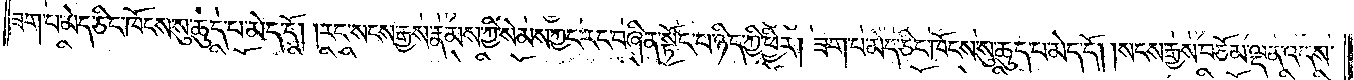ཟག་པ་མེད་ཅིང་ཁོངས་སུ་ཆུད་པ་མེད་དོ། །རང་སངས་རྒྱས་རྣམས་ཀྱི་སེམས་ཀྱང་རང་བཞིན་སྟོང་པ་ཉིད་ཀྱི་ཕྱིར། ཟག་པ་མེད་ཅིང་ཁོངས་སུ་ཆུད་པ་མེད་དོ། །སངས་རྒྱས་བཅོམ་ལྡན་འདས་
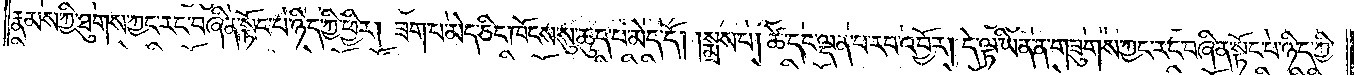རྣམས་ཀྱི་ཐུགས་ཀྱང་རང་བཞིན་སྟོང་པ་ཉིད་ཀྱི་ཕྱིར། ཟག་པ་མེད་ཅིང་ཁོངས་སུ་ཆུད་པ་མེད་དོ། །སྨྲས་པ། ཚེ་དང་ལྡན་པ་རབ་འབྱོར། དེ་ལྟ་ཡིན་ན་གཟུགས་ཀྱང་རང་བཞིན་སྟོང་པ་ཉིད་ཀྱི་
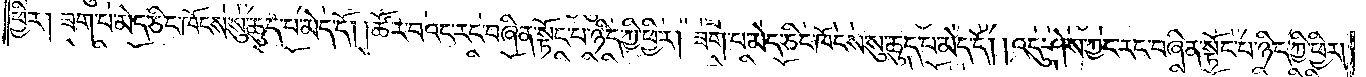ཕྱིར། ཟག་པ་མེད་ཅིང་ཁོངས་སུ་ཆུད་པ་མེད་དོ། །ཚོར་བའང་རང་བཞིན་སྟོང་པ་ཉིད་ཀྱི་ཕྱིར། ཟག་པ་མེད་ཅིང་ཁོངས་སུ་ཆུད་པ་མེད་དོ། །འདུ་ཤེས་ཀྱང་རང་བཞིན་སྟོང་པ་ཉིད་ཀྱི་ཕྱིར།
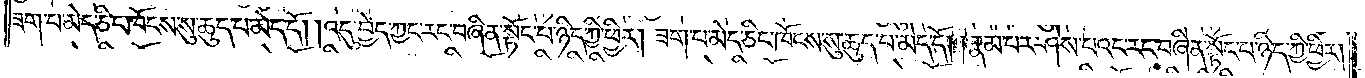ཟག་པ་མེད་ཅིང་ཁོངས་སུ་ཆུད་པ་མེད་དོ། །འདུ་བྱེད་ཀྱང་རང་བཞིན་སྟོང་པ་ཉིད་ཀྱི་ཕྱིར། ཟག་པ་མེད་ཅིང་ཁོངས་སུ་ཆུད་པ་མེད་དོ། །རྣམ་པར་ཤེས་པའང་རང་བཞིན་སྟོང་པ་ཉིད་ཀྱི་ཕྱིར།
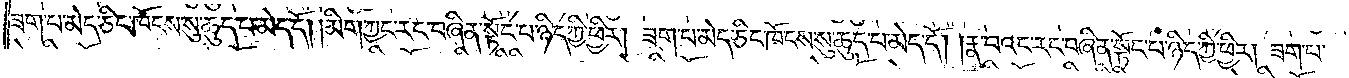ཟག་པ་མེད་ཅིང་ཁོངས་སུ་ཆུད་པ་མེད་དོ། །མིག་ཀྱང་རང་བཞིན་སྟོང་པ་ཉིད་ཀྱི་ཕྱིར། ཟག་པ་མེད་ཅིང་ཁོངས་སུ་ཆུད་པ་མེད་དོ། །རྣ་བའང་རང་བཞིན་སྟོང་པ་ཉིད་ཀྱི་ཕྱིར། ཟག་པ་
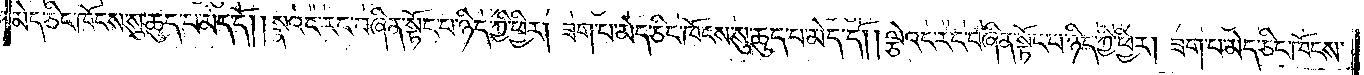མེད་ཅིང་ཁོངས་སུ་ཆུད་པ་མེད་དོ། །སྣའང་རང་བཞིན་སྟོང་པ་ཉིད་ཀྱི་ཕྱིར། ཟག་པ་མེད་ཅིང་ཁོངས་སུ་ཆུད་པ་མེད་དོ། །ལྕེའང་རང་བཞིན་སྟོང་པ་ཉིད་ཀྱི་ཕྱིར། ཟག་པ་མེད་ཅིང་ཁོངས་
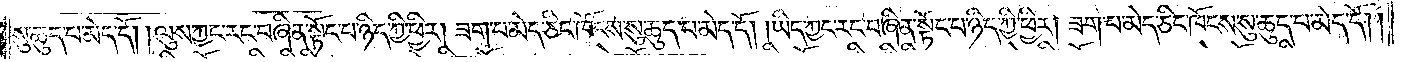སུ་ཆུད་པ་མེད་དོ། །ལུས་ཀྱང་རང་བཞིན་སྟོང་པ་ཉིད་ཀྱི་ཕྱིར། ཟག་པ་མེད་ཅིང་ཁོངས་སུ་ཆུད་པ་མེད་དོ། །ཡིད་ཀྱང་རང་བཞིན་སྟོང་པ་ཉིད་ཀྱི་ཕྱིར། ཟག་པ་མེད་ཅིང་ཁོངས་སུ་ཆུད་པ་མེད་དོ། །
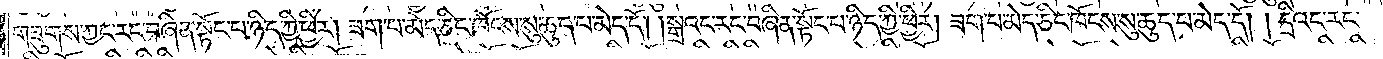གཟུགས་ཀྱང་རང་བཞིན་སྟོང་པ་ཉིད་ཀྱི་ཕྱིར། ཟག་པ་མེད་ཅིང་ཁོངས་སུ་ཆུད་པ་མེད་དོ། །སྒྲའང་རང་བཞིན་སྟོང་པ་ཉིད་ཀྱི་ཕྱིར། ཟག་པ་མེད་ཅིང་ཁོངས་སུ་ཆུད་པ་མེད་དོ། །དྲིའང་རང་
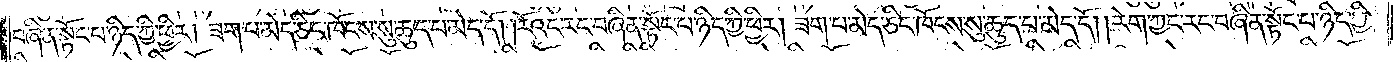བཞིན་སྟོང་པ་ཉིད་ཀྱི་ཕྱིར། ཟག་པ་མེད་ཅིང་ཁོངས་སུ་ཆུད་པ་མེད་དོ། །རོའང་རང་བཞིན་སྟོང་པ་ཉིད་ཀྱི་ཕྱིར། ཟག་པ་མེད་ཅིང་ཁོངས་སུ་ཆུད་པ་མེད་དོ། །རེག་ཀྱང་རང་བཞིན་སྟོང་པ་ཉིད་ཀྱི་
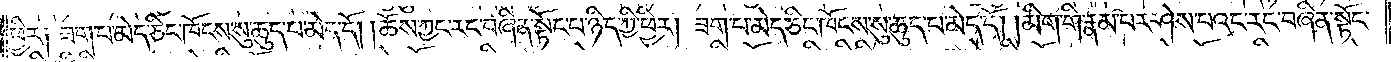ཕྱིར། ཟག་པ་མེད་ཅིང་ཁོངས་སུ་ཆུད་པ་མེད་དོ། །ཆོས་ཀྱང་རང་བཞིན་སྟོང་པ་ཉིད་ཀྱི་ཕྱིར། ཟག་པ་མེད་ཅིང་ཁོངས་སུ་ཆུད་པ་མེད་དོ། །མིག་གི་རྣམ་པར་ཤེས་པའང་རང་བཞིན་སྟོང་
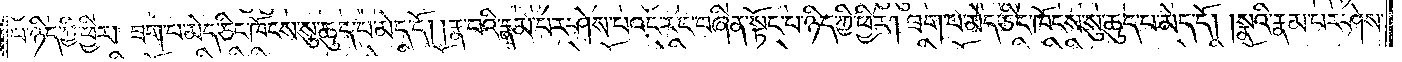པ་ཉིད་ཀྱི་ཕྱིར། ཟག་པ་མེད་ཅིང་ཁོངས་སུ་ཆུད་པ་མེད་དོ། །རྣ་བའི་རྣམ་པར་ཤེས་པའང་རང་བཞིན་སྟོང་པ་ཉིད་ཀྱི་ཕྱིར། ཟག་པ་མེད་ཅིང་ཁོངས་སུ་ཆུད་པ་མེད་དོ། །སྣའི་རྣམ་པར་ཤེས་
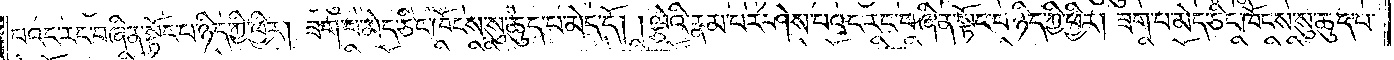པའང་རང་བཞིན་སྟོང་པ་ཉིད་ཀྱི་ཕྱིར། ཟག་པ་མེད་ཅིང་ཁོངས་སུ་ཆུད་པ་མེད་དོ། །ལྕེའི་རྣམ་པར་ཤེས་པའང་རང་བཞིན་སྟོང་པ་ཉིད་ཀྱི་ཕྱིར། ཟག་པ་མེད་ཅིང་ཁོངས་སུ་ཆུད་པ་
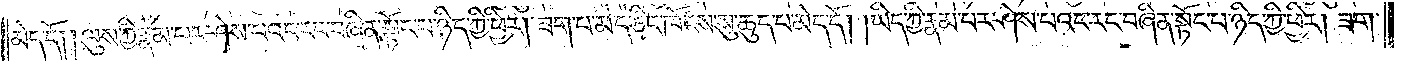མེད་དོ། །ལུས་ཀྱི་རྣམ་པར་ཤེས་པའང་རང་བཞིན་སྟོང་པ་ཉིད་ཀྱི་ཕྱིར། ཟག་པ་མེད་ཅིང་ཁོངས་སུ་ཆུད་པ་མེད་དོ། །ཡིད་ཀྱི་རྣམ་པར་ཤེས་པའང་རང་བཞིན་སྟོང་པ་ཉིད་ཀྱི་ཕྱིར། ཟག་
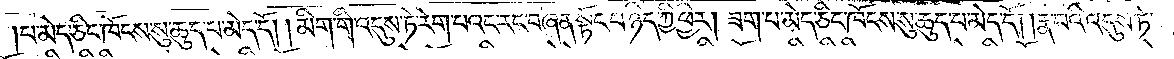པ་མེད་ཅིང་ཁོངས་སུ་ཆུད་པ་མེད་དོ། །མིག་གི་འདུས་ཏེ་རེག་པའང་རང་བཞིན་སྟོང་པ་ཉིད་ཀྱི་ཕྱིར། ཟག་པ་མེད་ཅིང་ཁོངས་སུ་ཆུད་པ་མེད་དོ། །རྣ་བའི་འདུས་ཏེ་
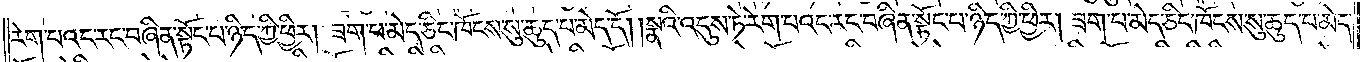རེག་པའང་རང་བཞིན་སྟོང་པ་ཉིད་ཀྱི་ཕྱིར། ཟག་པ་མེད་ཅིང་ཁོངས་སུ་ཆུད་པ་མེད་དོ། །སྣའི་འདུས་ཏེ་རེག་པའང་རང་བཞིན་སྟོང་པ་ཉིད་ཀྱི་ཕྱིར། ཟག་པ་མེད་ཅིང་ཁོངས་སུ་ཆུད་པ་མེད་
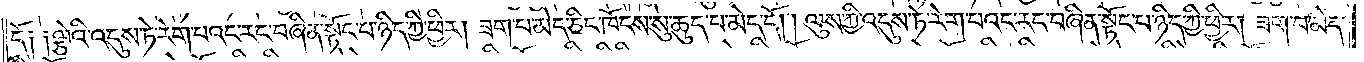དོ༑ ༑ལྕེའི་འདུས་ཏེ་རེག་པའང་རང་བཞིན་སྟོང་པ་ཉིད་ཀྱི་ཕྱིར། ཟག་པ་མེད་ཅིང་ཁོངས་སུ་ཆུད་པ་མེད་དོ། །ལུས་ཀྱི་འདུས་ཏེ་རེག་པའང་རང་བཞིན་སྟོང་པ་ཉིད་ཀྱི་ཕྱིར། ཟག་པ་མེད་
